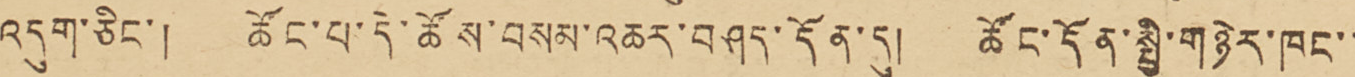འདུག་ཅིང་། ཚོང་པ་དེ་ཚོས་བསམ་འཆར་བཤད་དོན་དུ། ཚོང་དོན་སྤྱི་གཉེར་ཁང་་་
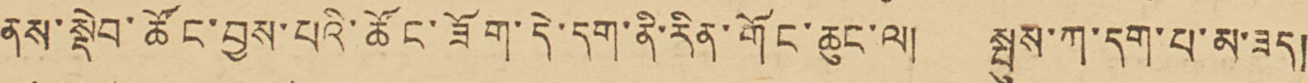ནས་སྡེབ་ཚོང་བྱས་པའི་ཚོང་ཟོག་དེ་དག་ནི་རིན་གོང་ཆུང་ལ། སྤུས་ཀ་དག་པ་མ་ཟད།
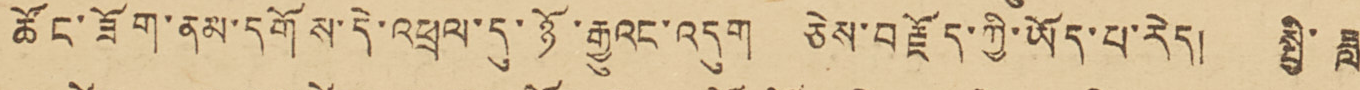ཚོང་ཟོག་ནམ་དགོས་དེ་འཕྲལ་དུ་ཉོ་རྒྱུའང་འདུག ཅེས་བརྗོད་ཀྱི་ཡོད་པ་རེད། སྤྱི་ཟླ་་
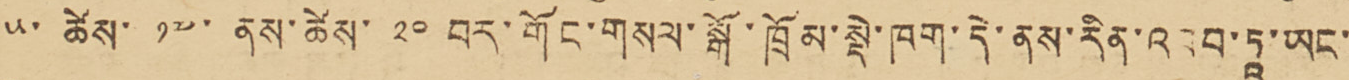༥ ཚེས་ ༡༧ ནས་ཚེས་ ༢༠ བར་གོང་གསལ་སྒོ་ཁྲོམ་སྡེ་ཁག་དེ་ནས་རིན་འབབ་ཏཱ་ཡང་་་
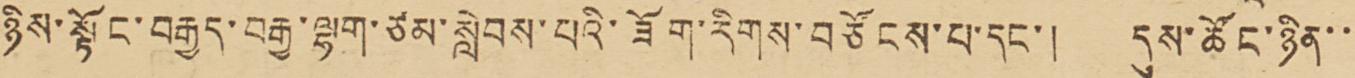ཉིས་སྟོང་བརྒྱད་བརྒྱ་ལྷག་ཙམ་སླེབས་པའི་ཟོག་རིགས་བཙོངས་པ་དང་། དུས་ཚོང་ཉིན་་་་
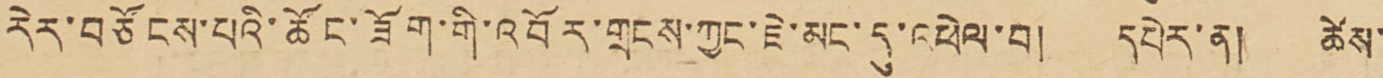རེར་བཙོངས་པའི་ཚོང་ཟོག་གི་འབོར་གྲངས་ཀྱང་ཇེ་མང་དུ་འཕེལ་བ། དཔེར་ན། ཚེས་
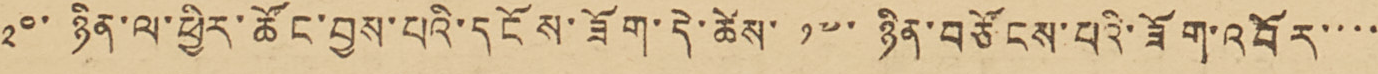༢༠ ཉིན་ལ་ཕྱིར་ཚོང་བྱས་པའི་དངོས་ཟོག་དེ་ཚེས་ ༡༧ ཉིན་བཙོངས་པའི་ཟོག་འབོར་་་་
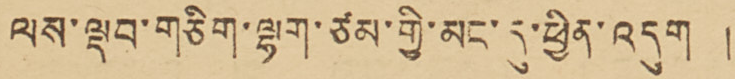ལས་ལྡབ་གཅིག་ལྷག་ཙམ་གྱི་མང་དུ་ཕྱིན་འདུག།།
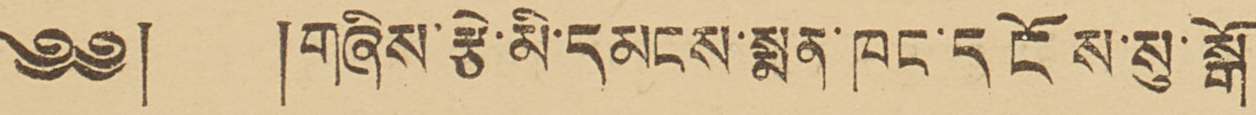༄༅། །གཞིས་རྩེ་མི་དམངས་སྨན་ཁང་དངོས་སུ་སྒོ་
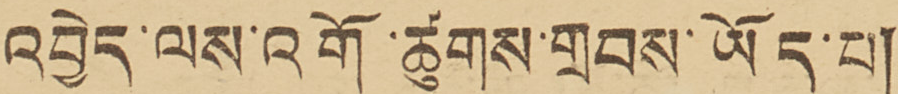འབྱེད་ལས་འགོ་ཚུགས་གྲབས་ཡོད་པ།
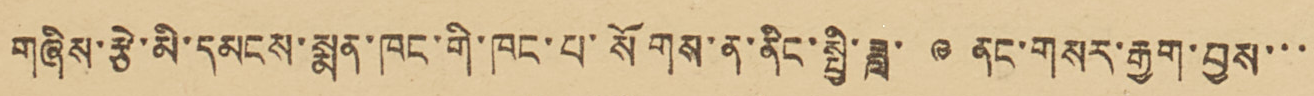གཞིས་རྩེ་མི་དམངས་སྨན་ཁང་གི་ཁང་པ་སོགས་ན་ནིང་སྤྱི་ཟླ་ ༩ ནང་གསར་རྒྱག་བྱས་་་་
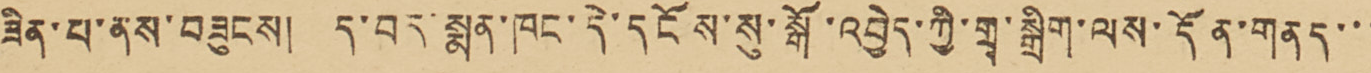ཟིན་པ་ནས་བཟུངས། ད་བར་སྨན་ཁང་དེ་དངོས་སུ་སྒོ་འབྱེད་ཀྱི་གྲྭ་སྒྲིག་ལས་དོན་གནད་་་
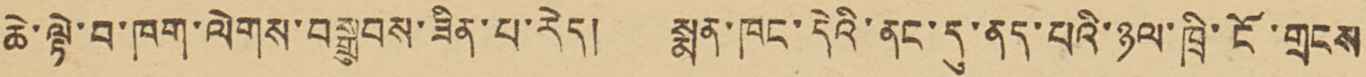ཆེ་ལྟེ་བ་ཁག་ལེགས་བསྒྲུབས་ཟིན་པ་རེད། སྨན་ཁང་དེའི་ནང་དུ་ནད་པའི་ཉལ་ཁྲི་ངོ་གྲངས་
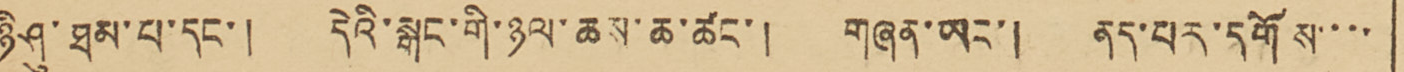ཉི་ཤུ་ཐམ་པ་དང་། དེའི་སྒང་གི་ཉལ་ཆས་ཆ་ཚང་། གཞན་ཡང་། ནད་པར་དགོས་་་་
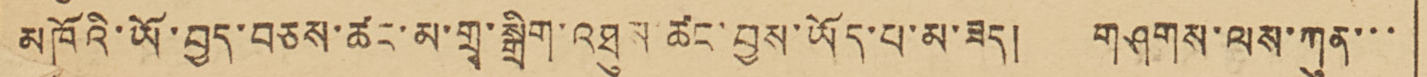མཁོའི་ཡོ་བྱད་བཅས་ཚང་མ་གྲྭ་སྒྲིག་འཐུས ཚང་བྱས་ཡོད་པ་མ་ཟད། གཤགས་ལས་ཀུན་་་
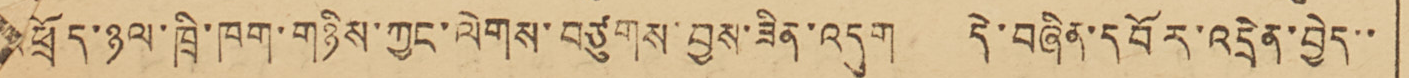འཕྲོད་ཉལ་ཁྲི་ཁག་གཉིས་ཀྱང་ལེགས་བཙུགས་བྱས་ཟིན་འདུག དེ་བཞིན་དབོར་འདྲེན་བྱེད་་
